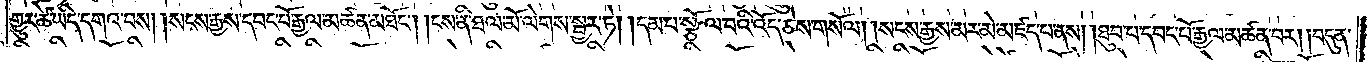གྱུར་ཚེ་ཡིད་དགའ་བས། །སངས་རྒྱས་དབང་པོ་རྒྱལ་མཚན་མཐོང༌། །ངས་ནི་ཐལ་མོ་ལེགས་སྦྱར་ཏེ། །དམ་པ་སྩོལ་བའི་འོད་ཅེས་གསོལ། །སངས་རྒྱས་མར་མེ་མཛད་པ་ནས། །ཐུབ་པ་དབང་པོ་རྒྱལ་མཚན་བར། །བདུན་
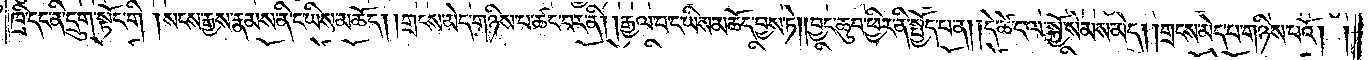ཁྲི་དང་ནི་དྲུག་སྟོང་གི། །སངས་རྒྱས་རྣམས་ནི་ང་ཡིས་མཆོད། །གྲངས་མེད་གཉིས་པ་ཚང་བར་ནི། །རྒྱལ་བ་ང་ཡིས་མཆོད་བྱས་ཏེ། །བྱང་ཆུབ་ཕྱིར་ནི་སྤྱོད་པ་ན། །དེ་ཚེ་ང་ལ་སྐྱོ་སེམས་མེད། །གྲངས་མེད་པ་གཉིས་པའོ། །
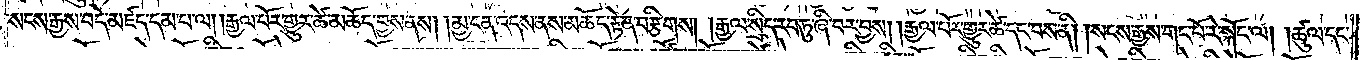སངས་རྒྱས་བདེ་མཛད་དམ་པ་ལ། །རྒྱལ་པོར་གྱུར་ཚེ་མཆོད་བྱས་ནས། །མྱ་ངན་འདས་ནས་མཆོད་རྟེན་བརྩིགས། །རྒྱལ་སྲིད་རབ་ཏུ་ཞི་བར་བྱས། །རྒྱལ་པོར་གྱུར་ཚེ་དང་བས་ནི། །སངས་རྒྱས་གང་པོ་རེ་སྐོང་ལ། །ཚུལ་དང་
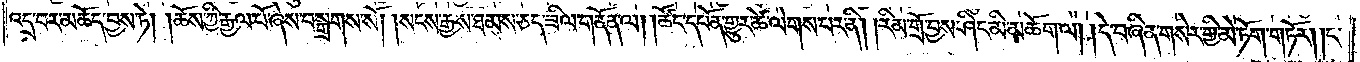འདྲ་བར་མཆོད་བྱས་ཏེ། །ཆོས་ཀྱི་རྒྱལ་པོ་ཞེས་བསྒྲགས་སོ། །སངས་རྒྱས་ཐམས་ཅད་ཟིལ་གནོན་ལ། །ཚོང་དཔོན་གྱུར་ཚེ་ལེགས་པར་ནི། །རིམ་གྲོ་བྱས་ཤིང་མི་མཆོག་ལ། །དེ་བཞིན་གསེར་གྱི་མེ་ཏོག་གཏོར། །ང་
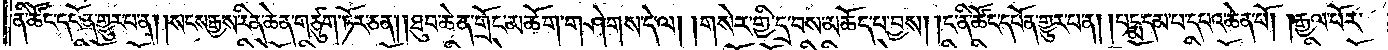ནི་ཚོང་དཔོན་གྱུར་པ་ན། །སངས་རྒྱས་རིན་ཆེན་གཙུག་ཏོར་ཅན། །ཐུབ་ཆེན་གྲོང་མཆོག་གཤེགས་དེ་ལ། །གསེར་གྱི་དྲ་བས་མཆོད་པ་བྱས། །ང་ནི་ཚོང་དཔོན་གྱུར་པ་ན། །པདྨ་དམ་པ་དཔའ་ཆེན་པོ། །རྒྱལ་པོར་
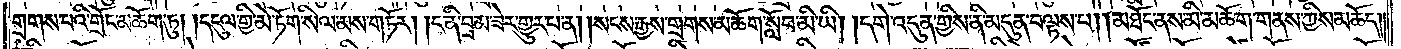གྲགས་པའི་གྲོང་མཆོག་ཏུ། །དངུལ་གྱི་མེ་ཏོག་སིལ་མས་གཏོར། །ང་ནི་བྲམ་ཟེར་གྱུར་པ་ན། །སངས་རྒྱས་གྲགས་མཆོག་སློབ་མི་ཡི། །དགེ་འདུན་གྱིས་ནི་མདུན་བལྟས་པ། །མཐོང་ནས་མི་མཆོག་གནས་ཀྱིས་མཆོད༎
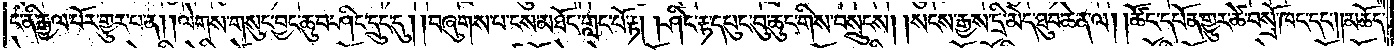ང་ནི་རྒྱལ་པོར་གྱུར་པ་ན། །ལེགས་གསུང་བྱང་ཆུབ་ཤིང་དྲུང་དུ། །བཞུགས་པ་ངས་མཐོང་གླང་པོ་རྟ། །ཤིང་རྟ་དཔུང་བུ་ཆུང་གིས་བསྲུངས། །སངས་རྒྱས་དྲི་མེད་ཐུབ་ཆེན་ལ། །ཚོང་དཔོན་གྱུར་ཚེ་བསྲོ་ཁང་དང༌། །མཆོད་
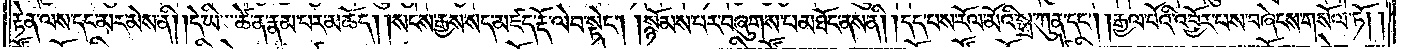རྟེན་ལས་དང་མར་མེས་ནི། །དེ་ཡི་ཚེ་ན་རྣམ་པར་མཆོད། །སངས་རྒྱས་སད་མཛད་རྡོ་ལེབ་སྟེང༌། །སྙོམས་པར་བཞུགས་པ་མཐོང་ནས་ནི། །དད་པས་རོལ་མོའི་སྒྲ་ཀུན་དང༌། །རྒྱལ་པོའི་འབྱོར་པས་བཞེངས་གསོལ་ཏོ། །
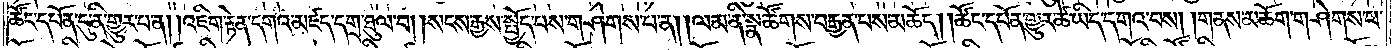ཚོང་དཔོན་དུ་ནི་གྱུར་པ་ན། །འཇིག་རྟེན་དགའ་མཛད་དགྲ་ཐུལ་བ། །སངས་རྒྱས་སྤྱོད་པས་གཤེགས་པ་ན། །ལམ་ནི་སྣ་ཚོགས་བརྒྱན་པས་མཆོད། །ཚོང་དཔོན་གྱུར་ཚེ་ཡིད་དགའ་བས། །གནས་མཆོག་གཤེགས་པ་
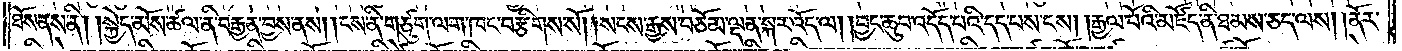ཐོས་ནས་ནི། །སྐྱེད་མོས་ཚལ་ནི་བརྒྱན་བྱས་ནས། །ངས་ནི་གཙུག་ལག་ཁང་བརྩིགས་སོ། །སངས་རྒྱས་བཅོམ་ལྡན་སྐར་འོད་ལ། །བྱང་ཆུབ་འདོད་པའི་དད་པས་ངས། །རྒྱལ་པོའི་མཛོད་ནི་ཐམས་ཅད་ལས། །ནོར་
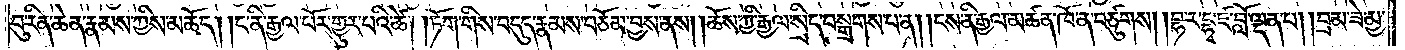བུ་རིན་ཆེན་རྣམས་ཀྱིས་མཆོད། །ང་ནི་རྒྱལ་པོར་གྱུར་པའི་ཚེ། །ཏོག་གིས་བདུད་རྣམས་བཅོམ་བྱས་ནས། །ཆོས་ཀྱི་རྒྱལ་སྲིད་བསྒྲགས་པ་ན། །ངས་ནི་རྒྱལ་མཚན་ཁོ་ན་བཙུགས། །བྷ་ར་དྷྭ་ཛ་བློ་ལྡན་པ། །བྲམ་ཟེ་མྱ་
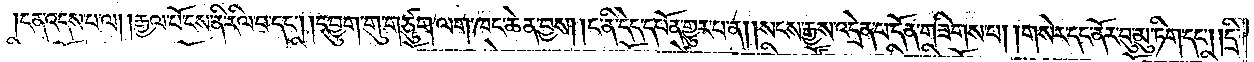ངན་འདས་པ་ལ། །རྒྱལ་པོ་ངས་ནི་རིལ་བ་དང༌། །དབྱུག་གུ་གཙུག་ལག་ཁང་ཆེན་བྱས། །ང་ནི་དེད་དཔོན་གྱུར་པ་ན། །སངས་རྒྱས་འདྲེན་པ་དོན་གཟིགས་པ། །གསེར་དང་ནོར་བུ་མུ་ཏིག་དང༌། །དྲི་
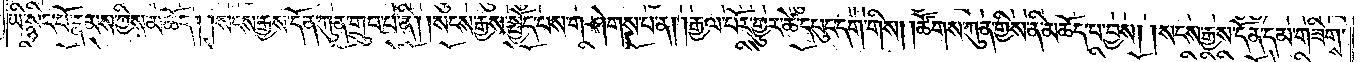ཡི་སྙིང་པོ་རྣམས་ཀྱིས་མཆོད། །སངས་རྒྱས་དོན་ཀུན་གྲུབ་པ་ནི། །སངས་རྒྱས་སྤྱོད་པས་གཤེགས་པ་ན། །རྒྱལ་པོར་གྱུར་ཚེ་དཔུང་དག་གིས། །ཚོགས་ཀུན་གྱིས་ནི་མཆོད་པ་བྱས། །སངས་རྒྱས་དོན་དམ་གཟིགས་
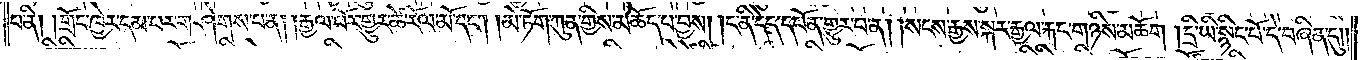པ་ནི། །གྲོང་ཁྱེར་དམ་པར་གཤེགས་པ་ན། །རྒྱལ་པོར་གྱུར་ཚེ་རོལ་མོ་དང༌། །མེ་ཏོག་ཀུན་གྱིས་མཆོད་པ་བྱས། །ང་ནི་དེད་དཔོན་གྱུར་པ་ན། །སངས་རྒྱས་སྐར་རྒྱལ་རྐང་གཉིས་མཆོག །དྲི་ཡི་སྙིང་པོ་དེ་བཞིན་དུ། །
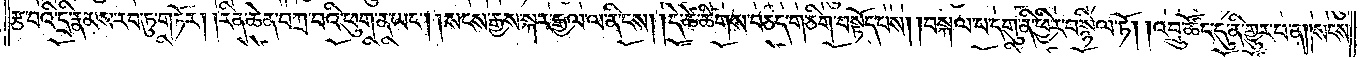རྩ་བའི་དྲི་རྣམས་རབ་ཏུ་གཏོར། །རིན་ཆེན་བཀྲ་བའི་ཕུག་ན་ཡང༌། །སངས་རྒྱས་སྐར་རྒྱལ་ལ་ནི་ངས། །དེ་ཚེ་ཚིགས་བཅད་གཅིག་བསྟོད་པས། །བསྐལ་པ་དགུ་ནི་ཕྱིར་བསྙིལ་ཏོ། །འབྲུ་ཚོང་དུ་ནི་གྱུར་པ་ན། །སངས་
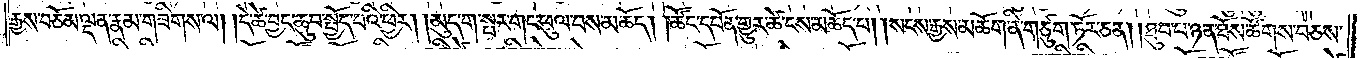རྒྱས་བཅོམ་ལྡན་རྣམ་གཟིགས་ལ། །དེ་ཚེ་བྱང་ཆུབ་སྤྱོད་པའི་ཕྱིར། །མུད་ག་སྤར་གང་ཕུལ་བས་མཆོད། །ཚོང་དཔོན་གྱུར་ཚེ་ངས་མཆོད་པ། །སངས་རྒྱས་མཆོག་ནི་གཙུག་ཏོར་ཅན། །ཐུབ་པ་ཉན་ཐོས་ཚོགས་བཅས་
